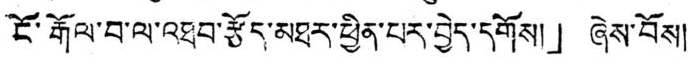ངོ་རྒོལ་བ་ལ་འཐབ་རྩོད་མཐར་ཕྱིན་པར་བྱེད་དགོས།」ཞེས་བོས།
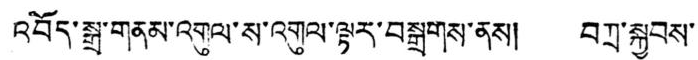འབོད་སྒྲ་གནམ་འགུལ་ས་འགུལ་ལྟར་བསྒྲགས་ནས། བཀྲ་སྐྱབས་
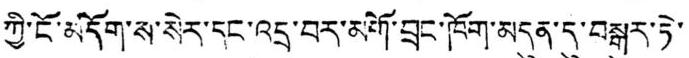ཀྱི་ངོ་མདོག་ས་སེར་དང་འདྲ་བར་མགོ་བྲང་ཁོག་མདུན་དུ་བསྒུར་ཏེ་
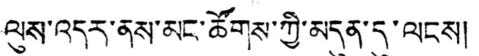ལུས་འདར་ནས་མང་ཚོགས་ཀྱི་མདུན་དུ་ལངས།
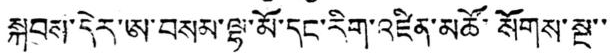སྐབས་དེར་ཨ་བསམ་ལྷ་མོ་དང་རིག་འཛིན་མཚོ་སོགས་སྔ་་་
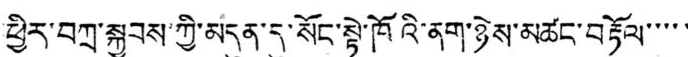ཕྱིར་བཀྲ་སྐྱབས་ཀྱི་མདུན་དུ་སོང་སྟེ་ཁོའི་ནག་ཉེས་མཚང་བརྟོལ་་་་་
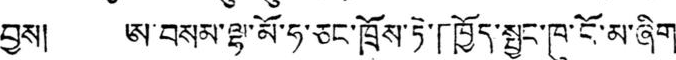བྱས། ཨ་བསམ་ལྷ་མོ་ཧ་ཅང་ཁྲོས་ཏེ་「ཁྱོད་སྦྱང་ཁུ་ངོ་མ་ཞིག་
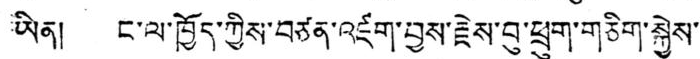ཡིན། ང་ལ་ཁྱོད་ཀྱིས་བཙན་འཛག་བྱས་རྗེས་བུ་ཕྲུག་གཅིག་སྐྱེས་
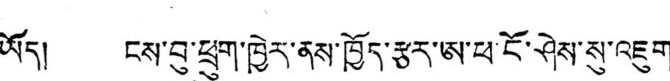ཡོད། ངས་བུ་ཕྲུག་ཁྱེར་ནས་ཁྱོད་རྩར་ཨ་ཕ་ངོ་ཤེས་སུ་འཇུག་
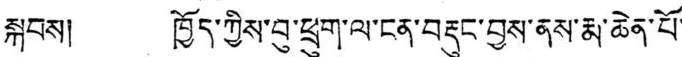སྐབས། ཁྱོད་ཀྱིས་བུ་ཕྲུག་ལ་ངན་བརྡུང་བྱས་ནས་རྨ་ཆེན་པོ་
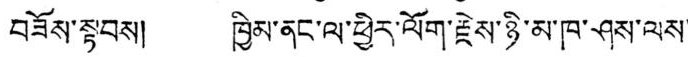བཟོས་སྟབས། ཁྱིམ་ནང་ལ་ཕྱིར་ལོག་རྗེས་ཉི་མ་ཁ་ཤས་ལས་
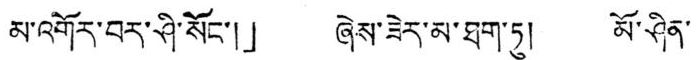མ་འགོར་བར་ཤི་སོང་།」 ཞེས་ཟེར་མ་ཐག་ཏུ། མོ་ཤིན་
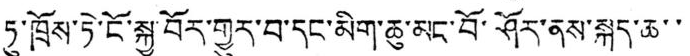ཏུ་ཁྲོས་ཏེ་ངོ་སྐྱ་བོད་གྱུར་བ་དང་མིག་ཆུ་མང་བོ་ཤོར་ནས་སྐད་ཆ་་
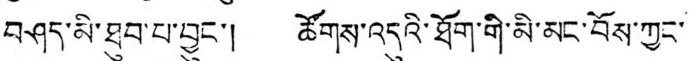བཤད་མི་ཐུབ་པ་བྱུང་། ཚོགས་འདུའི་ཐོག་གི་མི་མང་བོས་ཀྱང་
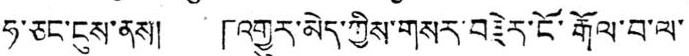ཧ་ཅང་ངུས་ནས། 「འགྱུར་མེད་ཀྱིས་གསར་བརྗེར་ངོ་རྒོལ་བ་ལ་
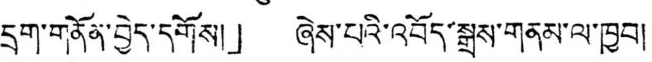དྲུག་གནོན་བྱེད་དགོས།」 ཞེས་པའི་འབོད་སྒྲས་གནམ་ལ་ཁྱབ།
